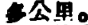多公里。
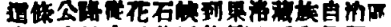這條公路從花石峽到果洛藏族自治區
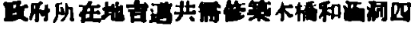政府所在地吉邁共需修築木橋和涵洞四
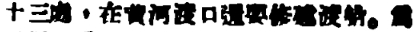十三處，在黃河渡口還要修建渡船。爲
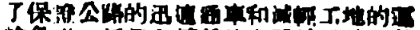了保證公路的訓蘇通車和減輕工地的運
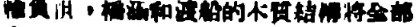輸負担，橋涵和渡船的木質結構將全部
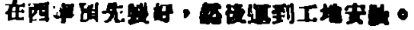在西寧預先製好，然後運到工地安裝。
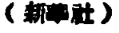（新華社）
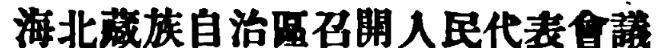海北藏族自治區召開人民代表會議
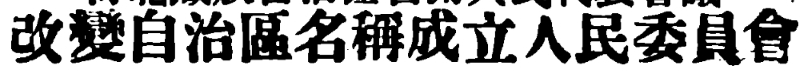改變自治區名稱成立人民委員會
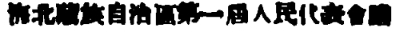海北藏族自治區第一屆人民代表會議
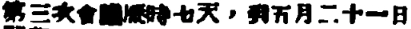第三次會議歷時七天，到五月二十一日
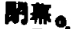閉幕。
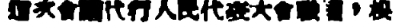這次會議代行人民代表大會職權，根
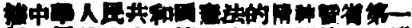據中華人民共和國憲法的精神暨省第一
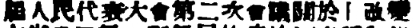人民代表大會第二次會議關於「改變
